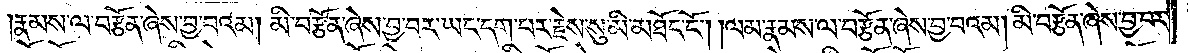རྣམས་ལ་བརྩོན་ཞེས་བྱ་བའམ། མི་བརྩོན་ཞེས་བྱ་བར་ཡང་དག་པར་རྗེས་སུ་མི་མཐོང་ངོ༌། །ལམ་རྣམས་ལ་བརྩོན་ཞེས་བྱ་བའམ། མི་བརྩོན་ཞེས་བྱ་བར་
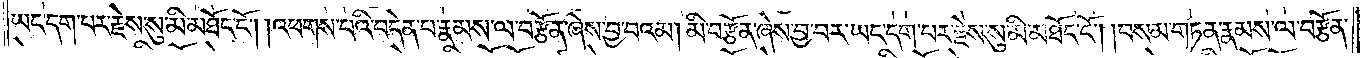ཡང་དག་པར་རྗེས་སུ་མི་མཐོང་ངོ༌། །འཕགས་པའི་བདེན་པ་རྣམས་ལ་བརྩོན་ཞེས་བྱ་བའམ། མི་བརྩོན་ཞེས་བྱ་བར་ཡང་དག་པར་རྗེས་སུ་མི་མཐོང་ངོ༌། །བསམ་གཏན་རྣམས་ལ་བརྩོན་
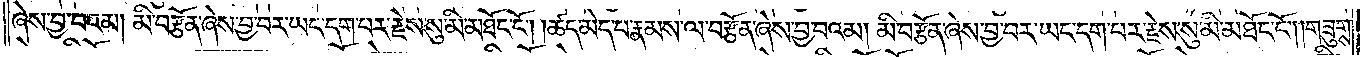ཞེས་བྱ་བའམ། མི་བརྩོན་ཞེས་བྱ་བར་ཡང་དག་པར་རྗེས་སུ་མི་མཐོང་ངོ༌། །ཚད་མེད་པ་རྣམས་ལ་བརྩོན་ཞེས་བྱ་བའམ། མི་བརྩོན་ཞེས་བྱ་བར་ཡང་དག་པར་རྗེས་སུ་མི་མཐོང་ངོ༌། །གཟུགས་
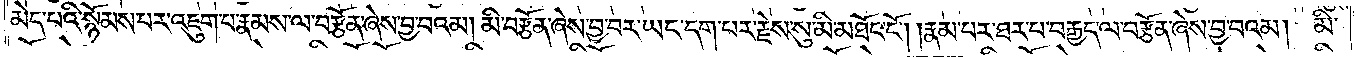མེད་པའི་སྙོམས་པར་འཇུག་པ་རྣམས་ལ་བརྩོན་ཞེས་བྱ་བའམ། མི་བརྩོན་ཞེས་བྱ་བར་ཡང་དག་པར་རྗེས་སུ་མི་མཐོང་ངོ༌། །རྣམ་པར་ཐར་པ་བརྒྱད་ལ་བརྩོན་ཞེས་བྱ་བའམ། མི་
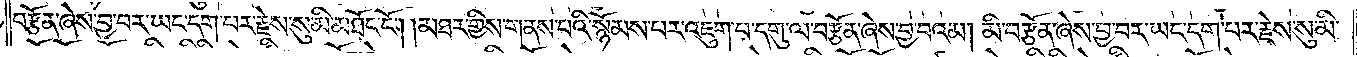བརྩོན་ཞེས་བྱ་བར་ཡང་དག་པར་རྗེས་སུ་མི་མཐོང་ངོ༌། །མཐར་གྱིས་གནས་པའི་སྙོམས་པར་འཇུག་པ་དགུ་ལ་བརྩོན་ཞེས་བྱ་བའམ། མི་བརྩོན་ཞེས་བྱ་བར་ཡང་དག་པར་རྗེས་སུ་མི་
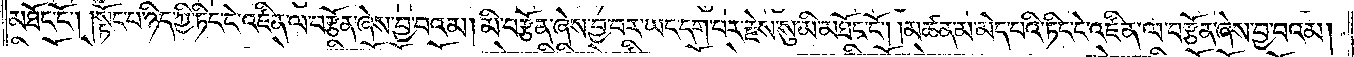མཐོང་ངོ༌། །སྟོང་པ་ཉིད་ཀྱི་ཏིང་ངེ་འཛིན་ལ་བརྩོན་ཞེས་བྱ་བའམ། མི་བརྩོན་ཞེས་བྱ་བར་ཡང་དག་པར་རྗེས་སུ་མི་མཐོང་ངོ༌། །མཚན་མ་མེད་པའི་ཏིང་ངེ་འཛིན་ལ་བརྩོན་ཞེས་བྱ་བའམ།
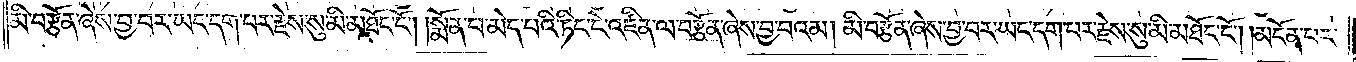མི་བརྩོན་ཞེས་བྱ་བར་ཡང་དག་པར་རྗེས་སུ་མི་མཐོང་ངོ༌། །སྨོན་པ་མེད་པའི་ཏིང་ངེ་འཛིན་ལ་བརྩོན་ཞེས་བྱ་བའམ། མི་བརྩོན་ཞེས་བྱ་བར་ཡང་དག་པར་རྗེས་སུ་མི་མཐོང་ངོ༌། །མངོན་པར་
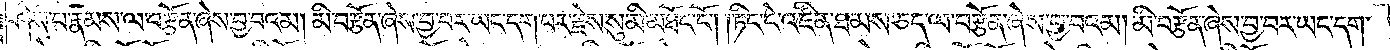ཤེས་པ་རྣམས་ལ་བརྩོན་ཞེས་བྱ་བའམ། མི་བརྩོན་ཞེས་བྱ་བར་ཡང་དག་པར་རྗེས་སུ་མི་མཐོང་ངོ༌། །ཏིང་ངེ་འཛིན་ཐམས་ཅད་ལ་བརྩོན་ཞེས་བྱ་བའམ། མི་བརྩོན་ཞེས་བྱ་བར་ཡང་དག་
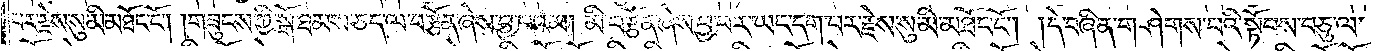པར་རྗེས་སུ་མི་མཐོང་ངོ༌། །གཟུངས་ཀྱི་སྒོ་ཐམས་ཅད་ལ་བརྩོན་ཞེས་བྱ་བའམ། མི་བརྩོན་ཞེས་བྱ་བར་ཡང་དག་པར་རྗེས་སུ་མི་མཐོང་ངོ༌། །དེ་བཞིན་གཤེགས་པའི་སྟོབས་བཅུ་ལ་
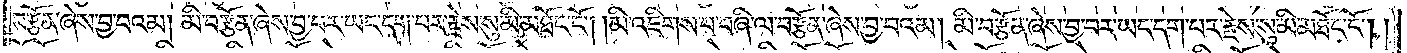བརྩོན་ཞེས་བྱ་བའམ། མི་བརྩོན་ཞེས་བྱ་བར་ཡང་དག་པར་རྗེས་སུ་མི་མཐོང་ངོ༌། །མི་འཇིགས་པ་བཞི་ལ་བརྩོན་ཞེས་བྱ་བའམ། མི་བརྩོན་ཞེས་བྱ་བར་ཡང་དག་པར་རྗེས་སུ་མི་མཐོང་ངོ༌། །
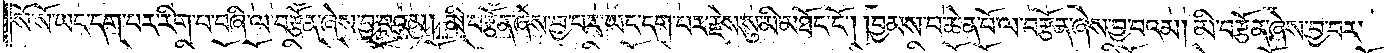སོ་སོ་ཡང་དག་པར་རིག་པ་བཞི་ལ་བརྩོན་ཞེས་བྱ་བའམ། མི་བརྩོན་ཞེས་བྱ་བར་ཡང་དག་པར་རྗེས་སུ་མི་མཐོང་ངོ༌། །བྱམས་པ་ཆེན་པོ་ལ་བརྩོན་ཞེས་བྱ་བའམ། མི་བརྩོན་ཞེས་བྱ་བར་
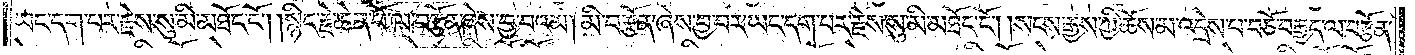ཡང་དག་པར་རྗེས་སུ་མི་མཐོང་ངོ༌། །སྙིང་རྗེ་ཆེན་པོ་ལ་བརྩོན་ཞེས་བྱ་བའམ། མི་བརྩོན་ཞེས་བྱ་བར་ཡང་དག་པར་རྗེས་སུ་མི་མཐོང་ངོ༌། །སངས་རྒྱས་ཀྱི་ཆོས་མ་འདྲེས་པ་བཅོ་བརྒྱད་ལ་བརྩོན་
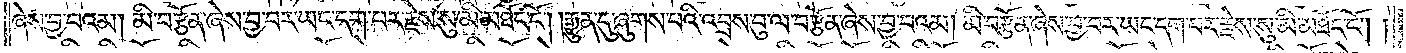ཞེས་བྱ་བའམ། མི་བརྩོན་ཞེས་བྱ་བར་ཡང་དག་པར་རྗེས་སུ་མི་མཐོང་ངོ༌། །རྒྱུན་དུ་ཞུགས་པའི་འབྲས་བུ་ལ་བརྩོན་ཞེས་བྱ་བའམ། མི་བརྩོན་ཞེས་བྱ་བར་ཡང་དག་པར་རྗེས་སུ་མི་མཐོང་ངོ༌། །
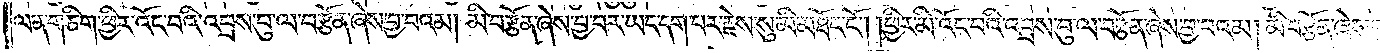ལན་གཅིག་ཕྱིར་འོང་བའི་འབྲས་བུ་ལ་བརྩོན་ཞེས་བྱ་བའམ། མི་བརྩོན་ཞེས་བྱ་བར་ཡང་དག་པར་རྗེས་སུ་མི་མཐོང་ངོ༌། །ཕྱིར་མི་འོང་བའི་འབྲས་བུ་ལ་བརྩོན་ཞེས་བྱ་བའམ། མི་བརྩོན་ཞེས་བྱ་
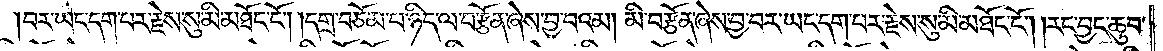བར་ཡང་དག་པར་རྗེས་སུ་མི་མཐོང་ངོ༌། །དགྲ་བཅོམ་པ་ཉིད་ལ་བརྩོན་ཞེས་བྱ་བའམ། མི་བརྩོན་ཞེས་བྱ་བར་ཡང་དག་པར་རྗེས་སུ་མི་མཐོང་ངོ༌། །རང་བྱང་ཆུབ་
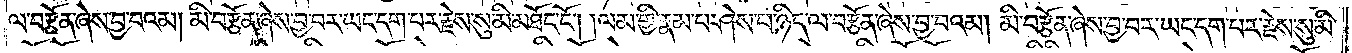ལ་བརྩོན་ཞེས་བྱ་བའམ། མི་བརྩོན་ཞེས་བྱ་བར་ཡང་དག་པར་རྗེས་སུ་མི་མཐོང་ངོ༌། །ལམ་གྱི་རྣམ་པ་ཤེས་པ་ཉིད་ལ་བརྩོན་ཞེས་བྱ་བའམ། མི་བརྩོན་ཞེས་བྱ་བར་ཡང་དག་པར་རྗེས་སུ་མི་
